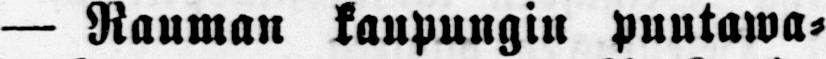— Rauman kaupungin puutawa-
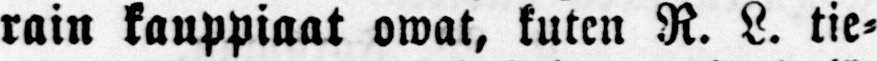rain kauppiaat owat, kuten R. L. tie-
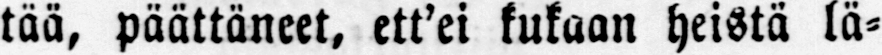tää, päättäneet, ett'ei kukaan heistä lä-
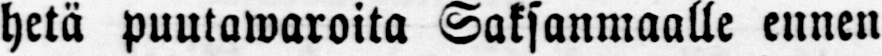hetä puutawaroita Saksanmaalle ennen
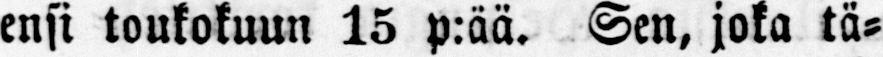ensi toukokuun 15 p:ää. Sen, joka tä-
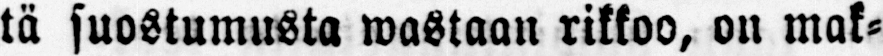tä suostumusta wastaan rikkoo, on mak-
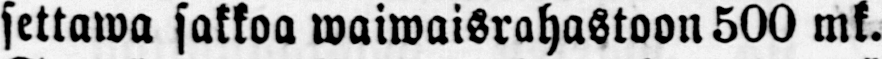settawa sakkoa waiwaisrahastoon 500 mk.
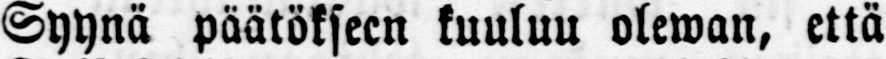Syynä päätökseen kuuluu olewan, että
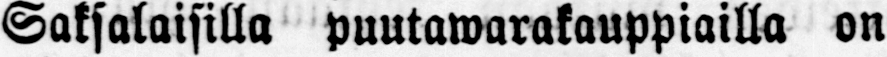Saksalaisilla puutawarakauppiailla on
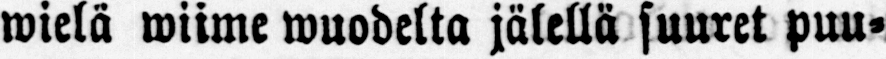wielä wiime wuodelta jälellä suuret puu-
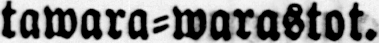tawara-warastot.
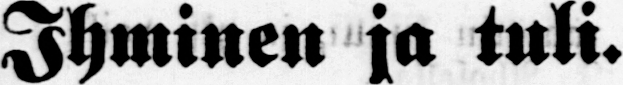Ihminen ja tuli.
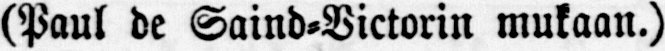(Paul de Saind-Victorin mukaan.)
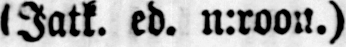(Jatk. ed. n:roon.)
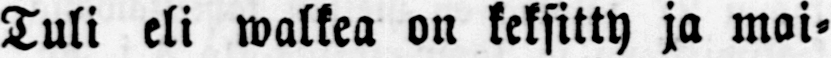Tuli eli walkea on keksitty ja mai-
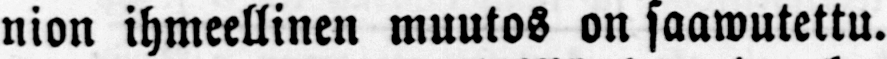nion ihmeellinen muutos on saawutettu.
